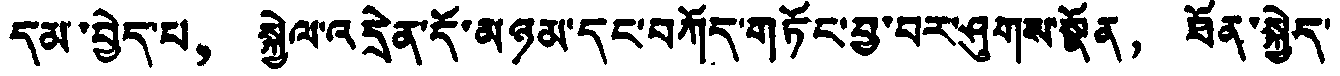དམ་བྱེད་པ， སྐྱེལ་འདྲེན་དོ་མཉམ་དང་བཀོད་གཏོང་བྱ་བར་ཤུགས་སྣོན， ཐོན་སྐྱེད་
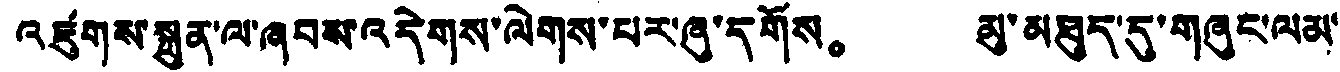འཛུགས་སྐྲུན་ལ་ཞབས་འདེགས་ལེགས་པར་ཞུ་དགོས。 མུ་མཐུད་དུ་གཞུང་ལམ་
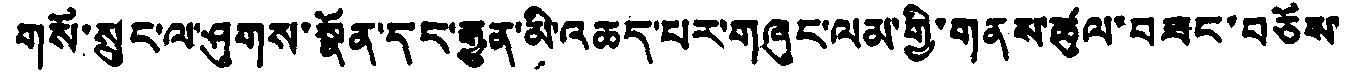གསོ་སྲུང་ལ་ཤུགས་སྣོན་དང་རྒྱུན་མི་འཆད་པར་གཞུང་ལམ་གྱི་གནས་ཚུལ་བཟང་བཅོས་
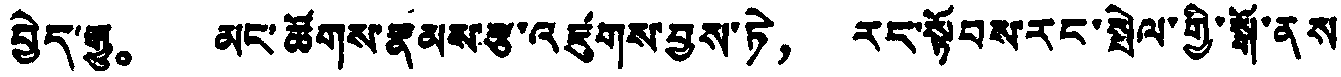བྱེད་རྒྱུ。 མང་ཚོགས་རྣམས་རྩ་འཛུགས་བྱས་ཏེ， རང་སྟོབས་རང་སྤེལ་གྱི་སྒོ་ནས་
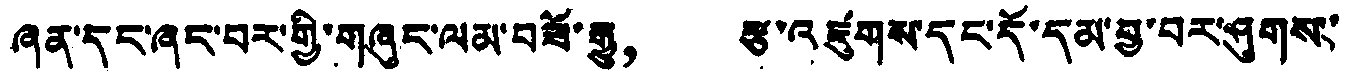ཞན་དང་ཞང་བར་གྱི་གཞུང་ལམ་བཟོ་རྒྱུ， རྩ་འཛུགས་དང་དོ་དམ་བྱ་བར་ཤུགས་
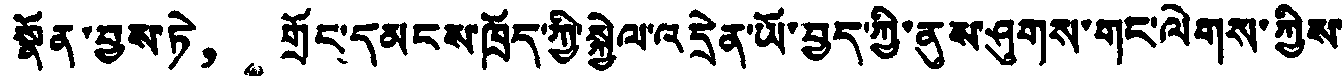སྣོན་བྱས་ཏེ， གྲོང་དམངས་ཁྲོད་ཀྱི་སྐྱེལ་འདྲེན་ཡོ་བྱད་ཀྱི་ནུས་ཤུགས་གང་ལེགས་ཀྱིས་
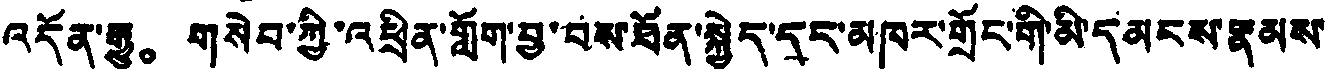འདོན་རྒྱུ。 གསེབ་ཀྱི་འཕྲིན་གློག་བྱ་བས་ཐོན་སྐྱེད་དང་མཁར་གྲོང་གི་མི་དམངས་རྣམས་
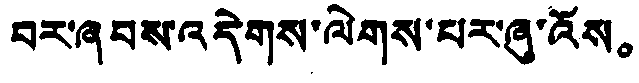བར་ཞབས་འདེགས་ལེགས་པར་ཞུ་འོས。
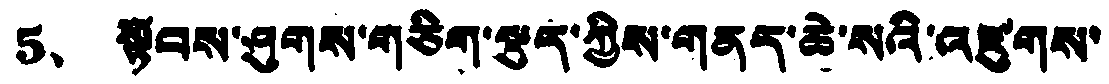5、 སྟོབས་ཤུགས་གཅིག་སྡུད་ཀྱིས་གནད་ཆེ་སའི་འཛུགས་
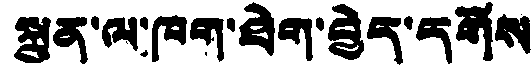སྐྲུན་ལ་ཁག་ཐེག་བྱེད་དགོས
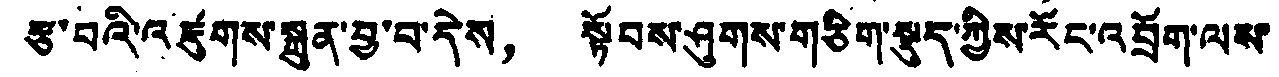རྩ་བའི་འཛུགས་སྐྲུན་བྱ་བ་དེས， སྟོབས་ཤུགས་གཅིག་སྡུད་ཀྱིས་རོང་འབྲོག་ལས་
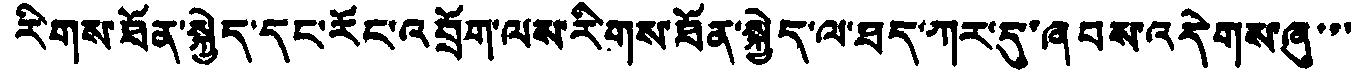རིགས་ཐོན་སྐྱེད་དང་རོང་འབྲོག་ལས་རིགས་ཐོན་སྐྱེད་ལ་ཐད་ཀར་དུ་ཞབས་འདེགས་ཞུ་་་
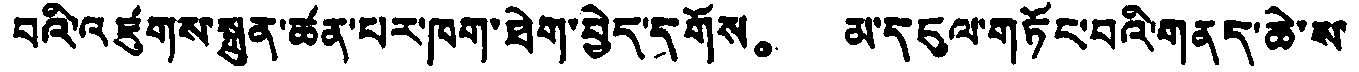བའི་འཛུགས་སྐྲུན་ཚན་པར་ཁག་ཐེག་བྱེད་དགོས。 མ་དངུལ་གཏོང་བའི་གནད་ཆེ་ས་
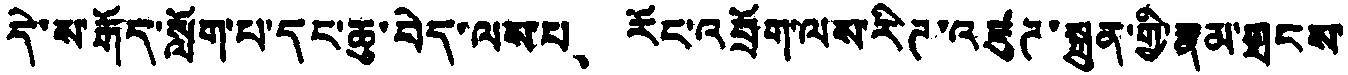དེ་ས་རྒོད་སློག་པ་དང་ཆུ་བེད་ལས་པ、 རོང་འབྲོག་ལས་རིཊ་འཛུཊ་སྐྲུན་གྱི་རྣམ་གྲངས་
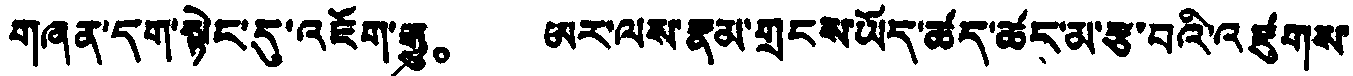གཞན་དག་སྟེང་དུ་འཇོག་རྒྱུ。 ཨར་ལས་རྣམ་གྲངས་ཡོད་ཚད་ཚང་མ་རྩ་བའི་འཛུགས་
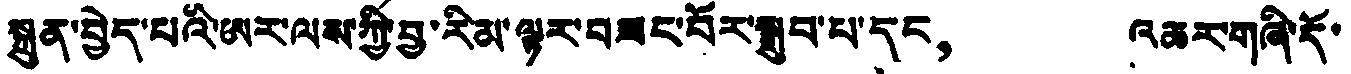སྐྲུན་བྱེད་པའི་ཨར་ལས་ཀྱི་བྱ་རིམ་ལྟར་བཟང་བོར་སྒྲུབ་པ་དང， འཆར་གཞི་དོ་
